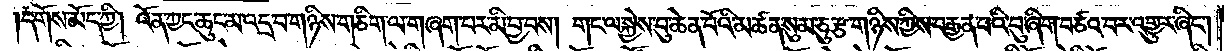དགོས་མོད་ཀྱི། འོན་ཀྱང་ཆུང་མ་འདྲ་བ་གཉིས་གཅིག་ལ་གཞག་པར་མི་བྱ་བས། གང་ལ་སྐྱེས་བུ་ཆེན་པོའི་མཚན་སུམ་ཅུ་རྩ་གཉིས་ཀྱིས་བརྒྱན་པའི་བུ་ཞིག་བཙའ་བར་འགྱུར་ཞིང༌།
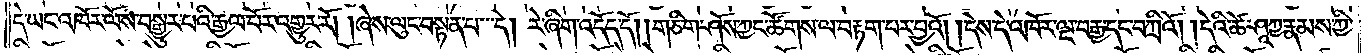དེ་ཡང་འཁོར་ལོས་བསྒྱུར་བའི་རྒྱལ་པོར་འགྱུར་རོ། །ཞེས་ལུང་བསྟན་པ་དེ། རེ་ཞིག་འདོད་དོ། །གཅིག་ཤོས་ཀྱང་ཚོགས་ལ་བརྟག་པར་བྱའོ། །དེས་དེ་འཁོར་ལྔ་བརྒྱ་དང་བཀྲིའོ། །དེའི་ཚེ་ཤཱཀྱ་རྣམས་ཀྱི་
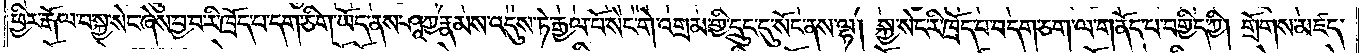ཕྱིར་རྒོལ་བ་སྐྱ་སེང་ཞེས་བྱ་བ་རི་ཁྲོད་པ་དག་ཅིག་ཡོད་ནས་ཤཱཀྱ་རྣམས་འདུས་ཏེ་རྒྱལ་པོ་སེང་གེ་འགྲམ་གྱི་དྲུང་དུ་སོང་ནས་ལྷ། སྐྱ་སེང་རི་ཁྲོད་པ་བདག་ཅག་ལ་གནོད་པ་བགྱིད་ཀྱི། གྲོགས་མཛད་
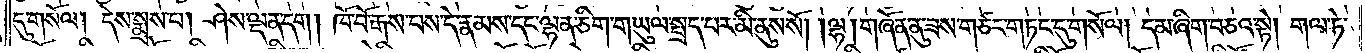དུ་གསོལ། དེས་སྨྲས་པ། ཤེས་ལྡན་དག །ཁོ་བོ་རྒས་པས་དེ་རྣམས་དང་ལྷན་ཅིག་གཡུལ་སྤྲད་པར་མི་ནུས་སོ། །ལྷ། གཞོན་ནུ་ཟས་གཙང་གཏང་དུ་གསོལ། དམ་ཞིག་བཅའ་སྟེ། གལ་ཏེ་
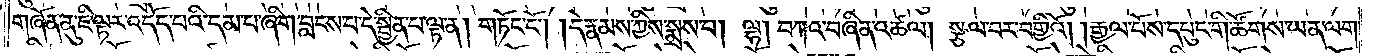གཞོན་ནུ་ཇི་ལྟར་འདོད་པའི་དམ་པ་ཞིག་བླངས་པ་དེ་སྦྱིན་པ་ལྟ་ན། གཏོང་ངོ༌། །དེ་རྣམས་ཀྱིས་སྨྲས་པ། ལྷ། བཀའ་བཞིན་འཚལ། སྩལ་བར་བགྱིའོ། །རྒྱལ་པོས་དཔུང་གི་ཚོགས་ཡན་ལག་
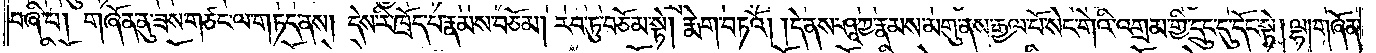བཞི་པ། གཞོན་ནུ་ཟས་གཙང་ལ་གཏད་ནས། དེས་རི་ཁྲོད་པ་དེ་རྣམས་བཅོམ། རབ་ཏུ་བཅོམ་སྟེ། རྨེག་བཏའོ། །དེ་ནས་ཤཱཀྱ་རྣམས་མགུ་ནས་རྒྱལ་པོ་སེང་གེ་འགྲམ་གྱི་དྲུང་དུ་དོང་སྟེ། ལྷ། གཞོན་
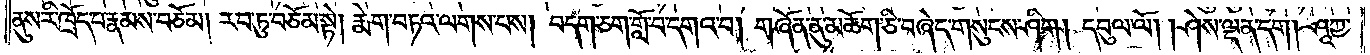ནུས་རི་ཁྲོད་པ་རྣམས་བཅོམ། རབ་ཏུ་བཅོམ་སྟེ། རྨེག་བཏའ་ལགས་པས། བདག་ཅག་གློ་བ་དགའ་བ། གཞོན་ནུ་མཆོག་ཅི་བཞེད་གསུངས་ཤིག །དབུལ་ལོ། །ཤེས་ལྡན་དག །ཤཱཀྱ་
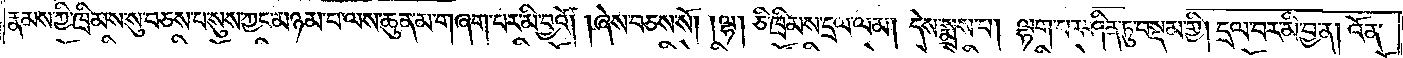རྣམས་ཀྱི་ཁྲིམས་སུ་བཅས་པ་སུས་ཀྱང་མཉམ་པ་ལས་ཆུན་མ་གཞག་པར་མི་བྱའོ། །ཞེས་བཅས་སོ། །ལྷ། ཅི་ཁྲིམས་དྲལ་ལམ། དེས་སྨྲས་པ། ལྷག་པར་ཤིན་ཏུ་བསྡམ་གྱི། དྲལ་བར་མི་བྱ་ན། འོན་
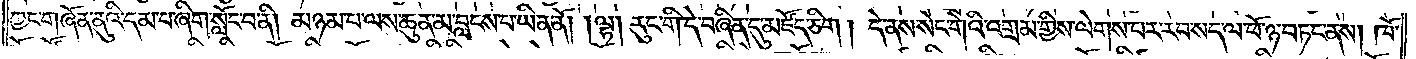ཀྱང་གཞོན་ནུའི་དམ་པ་ཞིག་སློང་བ་ནི། མཉམ་པ་ལས་ཆུན་མ་བླངས་པ་ཡིན་ནོ། །ལྷ། རུང་གི་དེ་བཞིན་དུ་མཛོད་ཅིག །དེ་ནས་སེང་གེའི་འགྲམ་གྱིས་ལེགས་པར་རབ་སད་ལ་ཕོ་ཉ་བཏང་ནས། ཁོ་
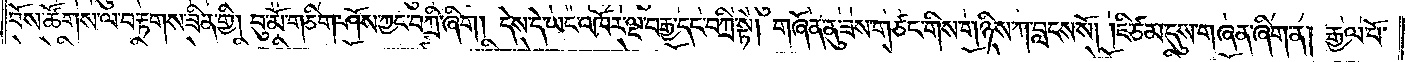བོས་ཚོགས་ལ་བརྟགས་ཟིན་གྱི། བུ་མོ་གཅིག་ཤོས་ཀྱང་བཀྲི་ཞིག །དེས་དེ་ཡང་འཁོར་ལྔ་བརྒྱ་དང་བཀྲི་སྟེ། གཞོན་ནུ་ཟས་གཙང་གིས་གཉིས་ཀ་བླངས་སོ། །ཇི་ཙམ་དུས་གཞན་ཞིག་ན། རྒྱལ་པོ་
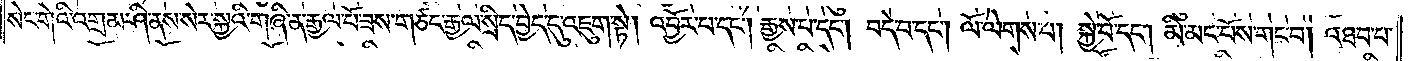སེང་གེའི་འགྲམ་ཤི་ནས་སེར་སྐྱའི་གཞི་ན་རྒྱལ་པོ་ཟས་གཙང་རྒྱལ་སྲིད་བྱེད་དུ་འཇུག་སྟེ། འབྱོར་པ་དང༌། རྒྱས་པ་དང༌། བདེ་བ་དང༌། ལོ་ལེགས་པ། སྐྱེ་བོ་དང༌། མི་མང་པོས་གང་བ། འཐབ་པ་
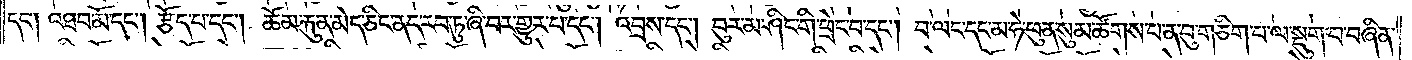དང༌། འཐབ་མོ་དང༌། རྩོད་པ་དང༌། ཆོམ་རྐུན་མེད་ཅིང་ནད་རབ་ཏུ་ཞི་བར་གྱུར་པ་དང༌། འབྲས་དང༌། བུ་རམ་ཤིང་གི་ཕྲེང་བ་དང༌། བ་ལང་དང་མ་ཧེ་ཕུན་སུམ་ཚོགས་པ་ན་བུ་གཅིག་པ་ལ་སྡུག་པ་བཞིན་
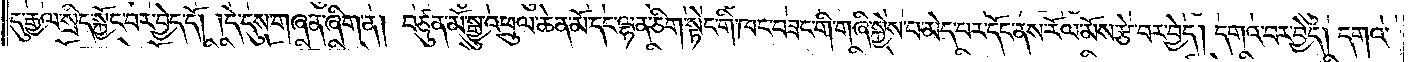དུ་རྒྱལ་སྲིད་སྐྱོང་བར་བྱེད་དོ། །དེ་དུས་གཞན་ཞིག་ན། བཙུན་མོ་སྒྱུ་འཕྲུལ་ཆེན་མོ་དང་ལྷན་ཅིག་སྟེང་གི་ཁང་བཟང་གི་གཞི་སྐྱེས་བ་མེད་པར་དོང་ནས་རོལ་མོས་རྩེ་བར་བྱེད། དགའ་བར་བྱེད། དགའ་
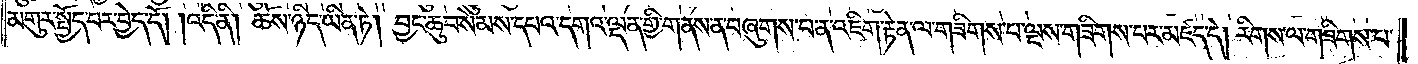མགུར་སྤྱོད་པར་བྱེད་དོ། །འདི་ནི། ཆོས་ཉིད་ཡིན་ཏེ། བྱང་ཆུབ་སེམས་དཔའ་དགའ་ལྡན་གྱི་གནས་ན་བཞུགས་པ་ན་འཇིག་རྟེན་ལ་གཟིགས་པ་ལྔས་གཟིགས་པར་མཛད་དེ། རིགས་ལ་གཟིགས་པ་
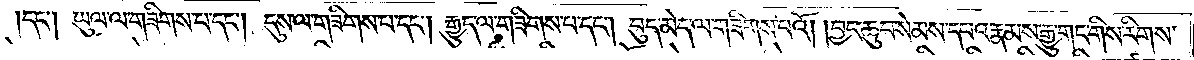དང༌། ཡུལ་ལ་གཟིགས་པ་དང༌། དུས་ལ་གཟིགས་པ་དང༌། རྒྱུད་ལ་གཟིགས་པ་དང༌། བུད་མེད་ལ་གཟིགས་པའོ། །བྱང་ཆུབ་སེམས་དཔའ་རྣམས་རྒྱུ་གང་གིས་རིགས་
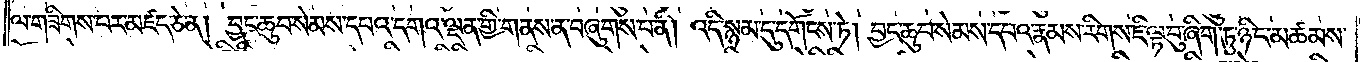ལ་གཟིགས་པར་མཛད་ཅེ་ན། བྱང་ཆུབ་སེམས་དཔའ་དགའ་ལྡན་གྱི་གནས་ན་བཞུགས་པ་ནི། འདི་སྙམ་དུ་དགོངས་ཏེ། བྱང་ཆུབ་སེམས་དཔའ་རྣམས་རིགས་ཇི་ལྟ་བུ་ཞིག་ཏུ་ཉིང་མཚམས་
